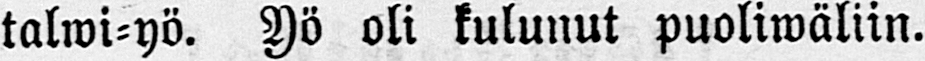talwi-yö. Yö oli kulunut puoliwäliin.
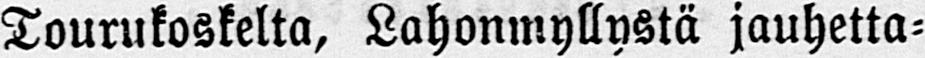Tourukoskelta, Lahonmyllystä jauhetta-
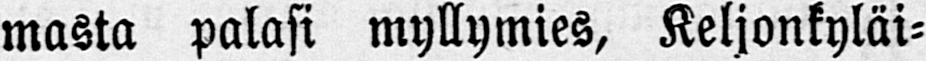masta palasi myllymies, Keljonkyläi-
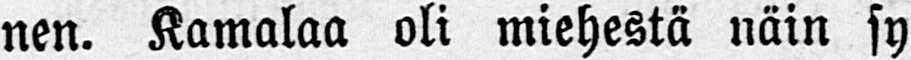nen. Kamalaa oli miehestä näin sy-
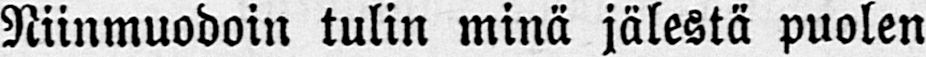Niinmuodoin tulin minä jälestä puolen
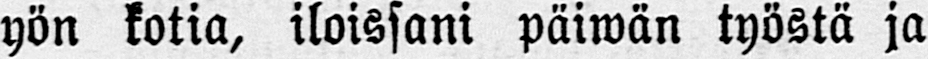yön kotia, iloissani päiwän työstä ja
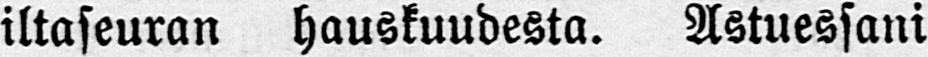iltaseuran hauskuudesta. Astuessani
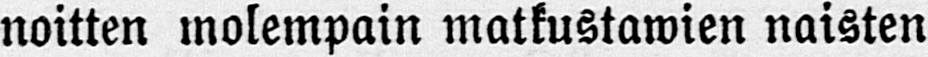noitten molempain matkustawien naisten
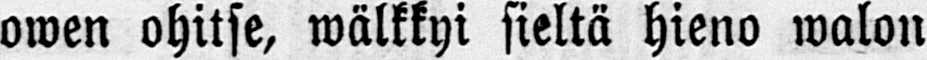owen ohitse, wälkkyi sieltä hieno walon
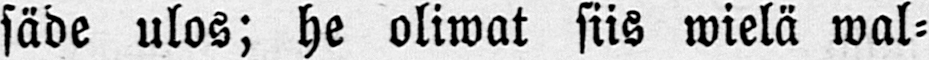säde ulos; he oliwat siis wielä wal-
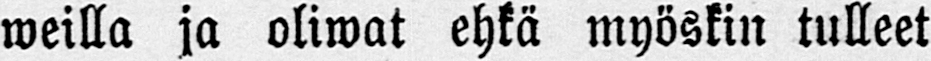weilla ja oliwat ehkä myöskin tulleet
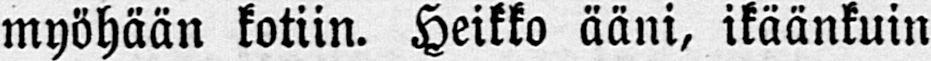myöhään kotiin. Heikko ääni, ikäänkuin
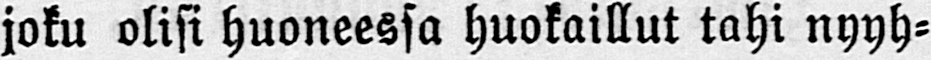joku olisi huoneessa huokaillut tahi nyyh-
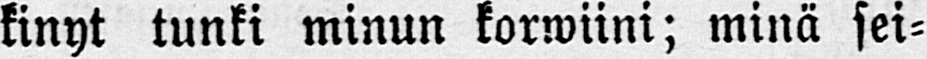kinyt tunki minun korwiini; minä sei-
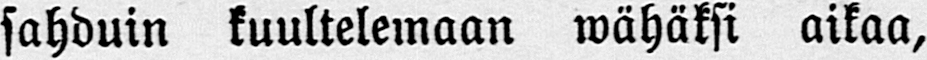sahduin kuultelemaan wähäksi aikaa,
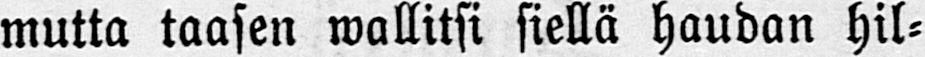mutta taasen wallitsi siellä haudan hil-
